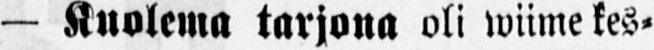— Kuolema tarjona oli wiime kes-
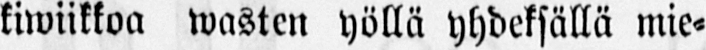kiwiikkoa wasten yöllä yhdeksällä mie-
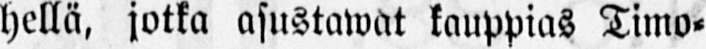hellä, jotka asustawat kauppias Timo-
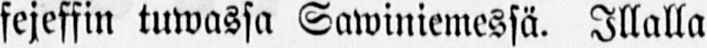fejeffin tuwassa Sawiniemessä. Illalla
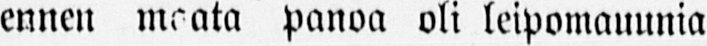ennen maata panoa oli leipomauunia
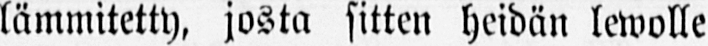lämmitetty, josta sitten heidän lewolle
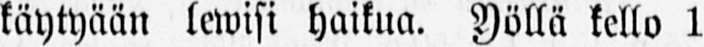käytyään lewisi haikua. Yöllä kello 1
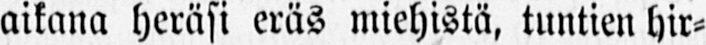aikana heräsi eräs miehistä, tuntien hir-
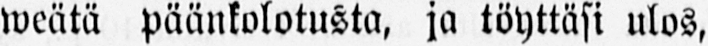weätä päänkolotusta, ja töyttäsi ulos,
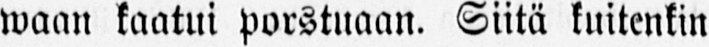waan kaatui porstuaan. Siitä kuitenkin
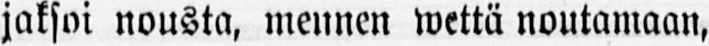jaksoi nousta, mennen wettä noutamaan,
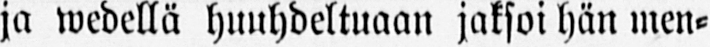ja wedellä huuhdeltuaan jaksoi hän men-
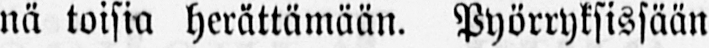nä toisia herättämään. Pyörryksissään
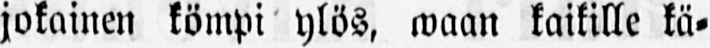jokainen kömpi ylös, waan kaikille kä-
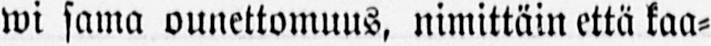wi sama onnettomuus, nimittäin että kaa-
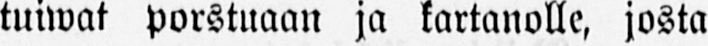tuiwat porstuaan ja kartanolle, josta
